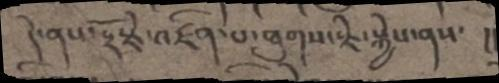དེ་ནས་རྡོ་རྗེ་འཛིན་པ་ཐུགས་རྗེ་སྐྱེས་ནས་  །།
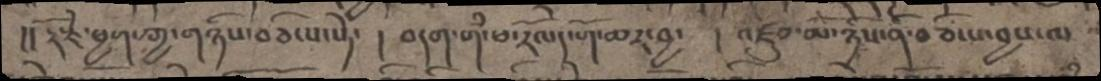།། རྡོ་རྗེ་ཕྱག་རྒྱ་གཉིས་བཅིངས་སྟེ་ ། བདག་གི་ཕ་རོལད་གོ་ཆར་བྱ་ ། འཛུབ་མོ་ཉིས་ནི་བཅིངས་བྱས་ལ
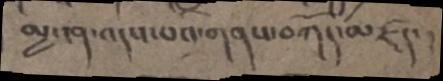མྱ་ངན་འདས་པའི་གནས་བཀོད་མཛད་།
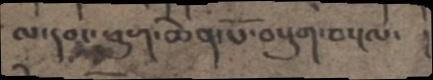ལ་དབང་ཕྱུག་ཆེན་པོ་བསྡུག་བསྔལ་
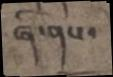ཞི་ནས་
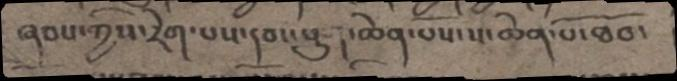ཞབས་ཀྱིས་རེག་པས་དབང་ཕྱུག་ཆེན་པོས་ས་ཆེན་པོ་ཐོབ་
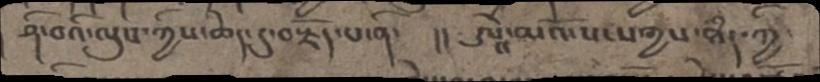ཤི་བའི་ལུས་ཀྱིས་ཆེད་དུ་བརྗོད་པ་ནི་  །། ཨཱེ་མའོ་སངས་རྒྱས་ཐཾད་ཀྱི་
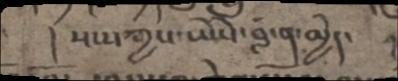། སངས་རྒྱས་ཡཻས་བླ་ན་མྱེད་ །
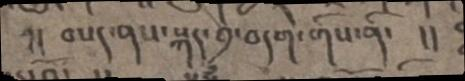ཤ།  བསད་ནས་སྐད་༡་བདག་གིས་ནི་  །།
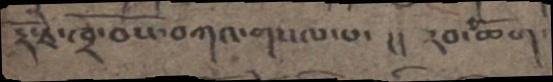རྡོ་རྗེ་ཁྲོ་བོས་བཀའ་གསལ་པ་  །།  རབ་ཆོག་
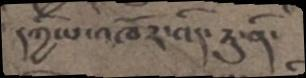དཀྱིལ་འཁོར་འདི་རུ་ནི་
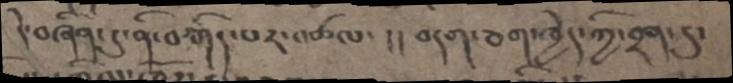དེ་བཞིན་དུ་ནི་བརྒིད་པར་འཚལ་  །། བདག་ཅག་ཁྱེད་ཀྱི་བྲན་དུ་
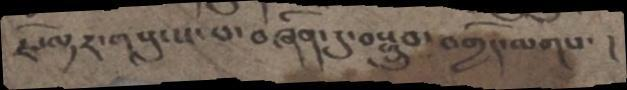ཇི་ལྟར་གསུངས་པ་བཞིན་དུ་བསྒྲུབ་བགྱིད་ལགས་  །
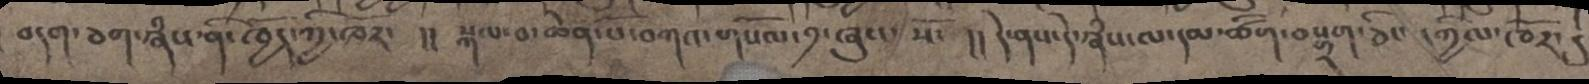བདག་ཅག་ཞེས་ནི་ཁྱོད་ཀྱི་ཁོར་  །། སྐལ་བ་ཆེན་པོ་བཀའ་གསོལ་༡་ཞུས་སོ་  །། དེ་ནས་དེ་རྣཾས་ལ་དམ་ཚིག་བསྒྲག་ཅིང་དཀྱིལ་འཁོར་དུ
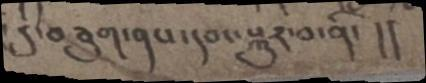་དུ་བཅུག་ནས་དབང་སྐུར་བ་ནི་ །།
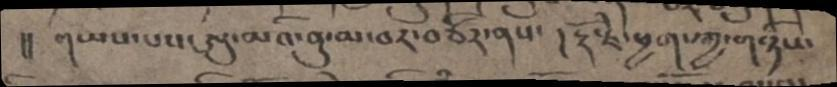།། གཡས་པས་ཨུ་མའི་ནུ་མ་བར་བཙིར་ནས་། རྡོ་རྗེ་ཕྱག་རྒྱ་གཉིས་
